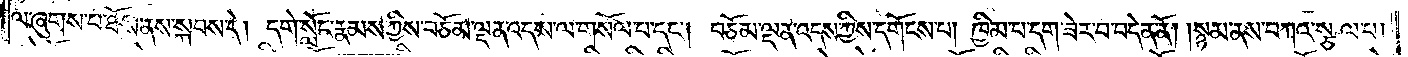ལ་ཞུགས་པ་ཐོས་ནས་སྐད་དེ། དགེ་སློང་རྣམས་ཀྱིས་བཅོམ་ལྡན་འདས་ལ་གསོལ་བ་དང༌། བཅོམ་ལྡན་འདས་ཀྱིས་དགོངས་པ། ཁྱིམ་པ་དག་ཟེར་བ་བདེན་ནོ། །སྙམ་ནས་བཀའ་སྩལ་པ།
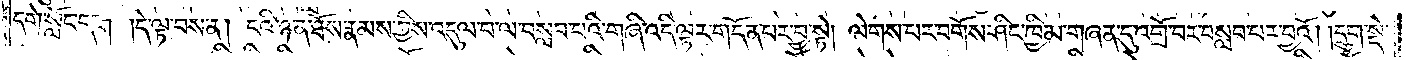དགེ་སློང་དག །དེ་ལྟ་བས་ན། ངའི་ཉན་ཐོས་རྣམས་ཀྱིས་འདུལ་བ་ལ་བསླབ་པའི་གཞི་འདི་ལྟར་གདོན་པར་བྱ་སྟེ། ལེགས་པར་བགོས་ཤིང་ཁྱིམ་གཞན་དུ་འགྲོ་བར་བསླབ་པར་བྱའོ། །དྲུག་སྡེ་
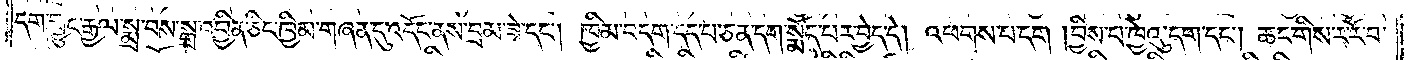དག་བྱུང་རྒྱལ་སྨྲ་བས་སྒྲ་འབྱིན་ཅིང་ཁྱིམ་གཞན་དུ་འདོང་ནས་བྲམ་ཟེ་དང༌། ཁྱིམ་བདག་དད་པ་ཅན་དག་སྨོད་པར་བྱེད་དེ། འཕགས་པ་དག །བྱིས་པ་ཁྱེའུ་དག་དང༌། ཆང་གིས་ར་རོ་བ་
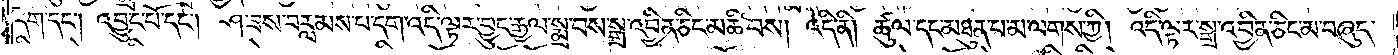དག་དང༌། འབྱུང་པོ་དང༌། ཤ་ཟས་བརླམས་པ་དག་འདི་ལྟར་བྱུང་རྒྱལ་སྨྲ་བས་སྒྲ་འབྱིན་ཅིང་མཆི་བས། འདི་ནི། ཚུལ་དང་མཐུན་པ་མ་ལགས་ཀྱི། འདི་ལྟར་སྒྲ་འབྱིན་ཅིང་མ་བཞུད་
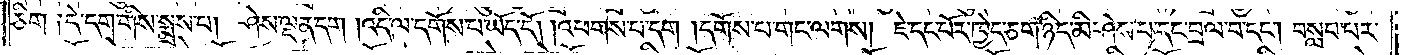ཅིག །དེ་དག་གིས་སྨྲས་པ། ཤེས་ལྡན་དག །འདི་ལ་དགོས་པ་ཡོད་དོ། །འཕགས་པ་དག །དགོས་པ་གང་ལགས། ཇེ་དང་པོར་ཁྱེད་ཅག་ཉིད་མི་ཤེས་པ་དང་བྲལ་བ་དང༌། བསླབ་པར་
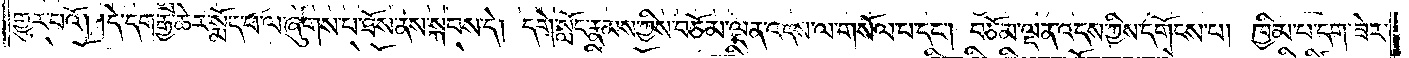གྱུར་པའོ། །དེ་དག་རྒྱ་ཆེར་སྨོད་པ་ལ་ཞུགས་པ་ཐོས་ནས་སྐབས་དེ། དགེ་སློང་རྣམས་ཀྱིས་བཅོམ་ལྡན་འདས་ལ་གསོལ་པ་དང༌། བཅོམ་ལྡན་འདས་ཀྱིས་དགོངས་པ། ཁྱིམ་པ་དག་ཟེར་
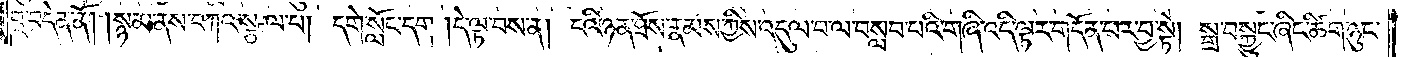བ་བདེན་ནོ། །སྙམ་ནས་བཀའ་སྩལ་པ། དགེ་སློང་དག །དེ་ལྟ་བས་ན། ངའི་ཉན་ཐོས་རྣམས་ཀྱིས་འདུལ་བ་ལ་བསླབ་པའི་གཞི་འདི་ལྟར་གདོན་པར་བྱ་སྟེ། སྒྲ་བསྐྱུང་ཞིང་ཚིག་ཉུང་
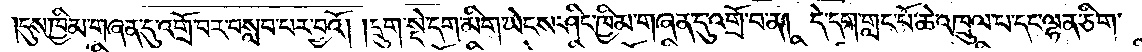དུས་ཁྱིམ་གཞན་དུ་འགྲོ་བར་བསླབ་པར་བྱའོ། །དྲུག་སྡེ་དག་མིག་ཡེངས་ཤིང་ཁྱིམ་གཞན་དུ་འགྲོ་བ་ན། དེ་དག་གླང་པོ་ཆེ་འཁྲུལ་པ་དང་ལྷན་ཅིག་
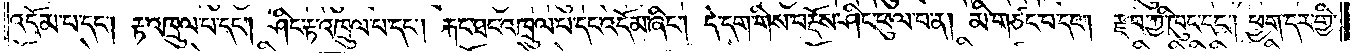འདོམ་པ་དང༌། རྟ་འཁྲུལ་པ་དང༌། ཤིང་རྟ་འཁྲུལ་པ་དང༌། རྐང་ཐང་འཁྲུལ་པ་དང་འདོམ་ཞིང༌། དེ་དག་གིས་བརྡོས་ཤིང་ཕུལ་བ་ན། མི་གཙང་བ་དང༌། རྫབ་ཀྱི་ཁུང་དང༌། ཕྱག་དར་གྱི་
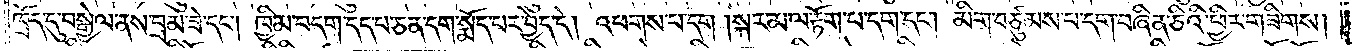ཁྲོད་དུ་བསྒྱེལ་ནས་བྲམ་ཟེ་དང༌། ཁྱིམ་བདག་དད་པ་ཅན་དག་སྨོད་པར་བྱེད་དེ། འཕགས་པ་དག །སྐར་མ་ལ་རྟོག་པ་དག་དང༌། མིག་བཙུམས་པ་དག་བཞིན་ཅིའི་ཕྱིར་གཟིགས།
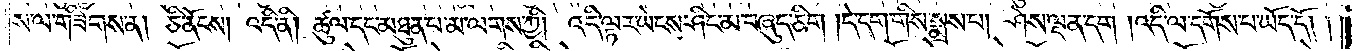ས་ལ་གཟིགས་ན། ཅི་ནོངས། འདི་ནི། ཚུལ་དང་མཐུན་པ་མ་ལགས་ཀྱི། འདི་ལྟར་ཡེངས་ཤིང་མ་བཞུད་ཅིག །དེ་དག་གིས་སྨྲས་པ། ཤེས་ལྡན་དག །འདི་ལ་དགོས་པ་ཡོད་དོ། །
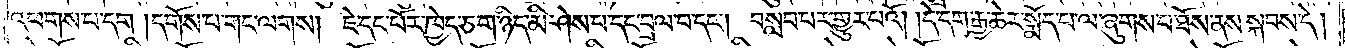འཕགས་པ་དག །དགོས་པ་གང་ལགས། ཇེ་དང་པོར་ཁྱེད་ཅག་ཉིད་མི་ཤེས་པ་དང་བྲལ་བ་དང༌། བསླབ་པར་གྱུར་པའོ། །དེ་དག་རྒྱ་ཆེར་སྨོད་པ་ལ་ཞུགས་པ་ཐོས་ནས་སྐབས་དེ།
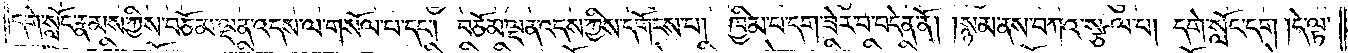དགེ་སློང་རྣམས་ཀྱིས་བཅོམ་ལྡན་འདས་ལ་གསོལ་པ་དང༌། བཅོམ་ལྡན་འདས་ཀྱིས་དགོངས་པ། ཁྱིམ་པ་དག་ཟེར་བ་བདེན་ནོ། །སྙམ་ནས་བཀའ་སྩལ་པ། དགེ་སློང་དག །དེ་ལྟ་
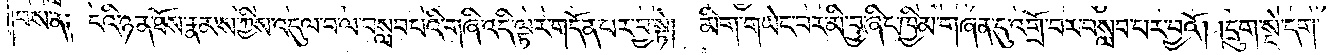བས་ན། ངའི་ཉན་ཐོས་རྣམས་ཀྱིས་འདུལ་བ་ལ་བསླབ་པའི་གཞི་འདི་ལྟར་གདོན་པར་བྱ་སྟེ། མིག་གཡེང་བར་མི་བྱ་ཞིང་ཁྱིམ་གཞན་དུ་འགྲོ་བར་བསླབ་པར་བྱའོ། །དྲུག་སྡེ་དག་
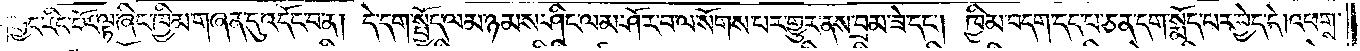མིག་རྒྱང་རིང་པོར་ལྟ་ཞིང་ཁྱིམ་གཞན་དུ་འདོང་བ་ན། དེ་དག་སྤྱོད་ལམ་ཉམས་ཤིང་ལམ་ཤོར་བ་ལ་སོགས་པར་གྱུར་ནས་བྲམ་ཟེ་དང༌། ཁྱིམ་བདག་དད་པ་ཅན་དག་སྨོད་པར་བྱེད་དེ། འཕགས་
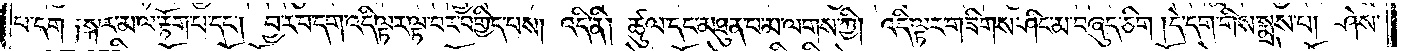པ་དག །སྐར་མ་ལ་རྟོག་པ་དང༌། བྱ་ར་བ་དག་འདི་ལྟར་ལྟ་བར་བགྱིད་པས། འདི་ནི། ཚུལ་དང་མཐུན་པ་མ་ལགས་ཀྱི། འདི་ལྟར་གཟིགས་ཤིང་མ་བཞུད་ཅིག །དེ་དག་གིས་སྨྲས་པ། ཤེས་
